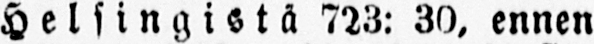Helsingistä 723: 30, ennen
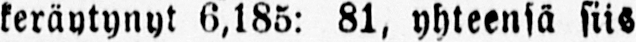keräytynyt 6,185: 81, yhteensä siis
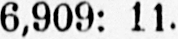6,909: 11.
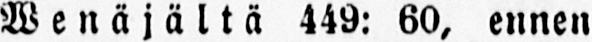Wenäjältä 449: 60, ennen
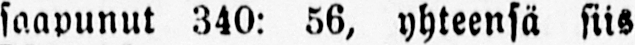saapunut 340: 56, yhteensä siis
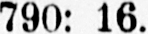790: 16.
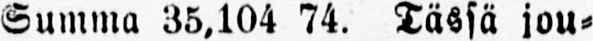Summa 35,104 74. Tässä jou-
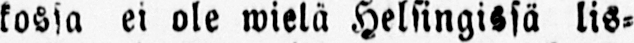kossa ei ole wielä Helsingissä lis-
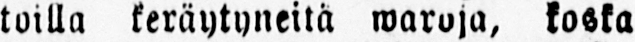toilla keräytyneitä waroja, koska
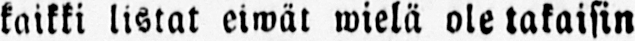kaikki listat eiwät wielä ole takaisin
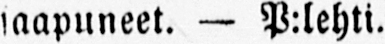saapuneet. — P:lehti.
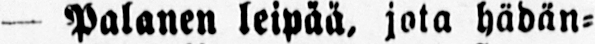— Palanen leipää, jota hädän-
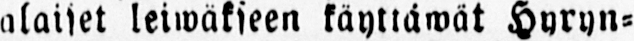alaiset leiwäkseen käyttäwät Hyryn-
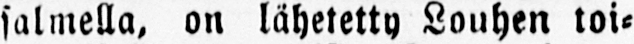salmella, on lähetelty Louhen toi-
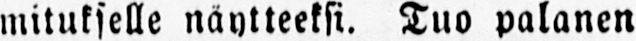mitukselle näytteeksi. Tuo palanen
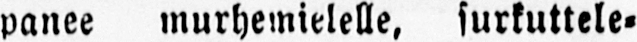panee murhemielelle, surkuttele-
